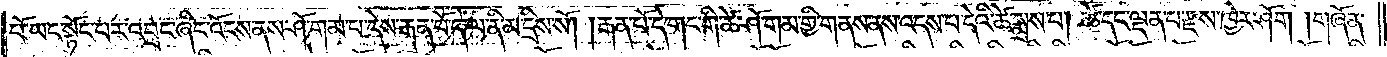པོ་ཡང་སྟོང་པར་འབྲང་ཞིང་འོངས་ནས་ཤོ་གམ་པ་དེས་རྒན་པོ་དེ་ལ་ནི་མ་དྲིས་སོ། །རྒན་པོ་དེ་གང་གི་ཚེ་ཤོ་གམ་གྱི་གནས་ནས་འདས་པ་དེའི་ཚེ་སྨྲས་པ། ཚེ་དང་ལྡན་པ་རྫས་ཁྱེར་ཤོག །གཞོན་
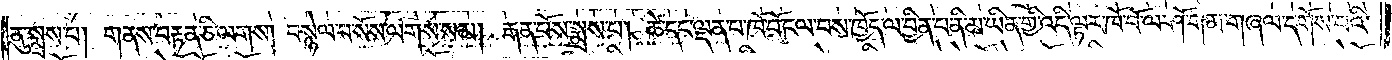ནུ་སྨྲས་པ། གནས་བརྟན་ཅི་ལགས། བསྙེལ་བ་སོས་ལགས་སམ། རྒན་པོས་སྨྲས་པ། ཚེ་དང་ལྡན་པ་ཁོ་བོ་ངལ་བས་ཁྱོད་ལ་བྱིན་པ་ནི་མ་ཡིན་གྱི་འདི་ལྟར་ཁོ་བོ་ལ་ཤོ་གམ་གཞལ་དགོས་པའི་
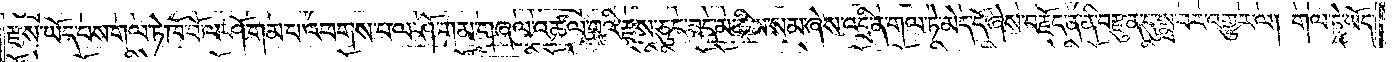རྫས་ཡོད་པས་གལ་ཏེ་ཁོ་བོ་ལ་ཤོ་གམ་པ་འཕགས་པ་ལ་ཤོ་གམ་གཞལ་འཚལ་བའི་རྫས་ཅུང་ཟད་མཆིས་སམ་ཞེས་འདྲི་ན་གལ་ཏེ་མེད་དོ་ཞེས་བརྗོད་ན་ནི་བརྫུན་དུ་སྨྲ་བར་འགྱུར་ལ། གལ་ཏེ་ཡོད་
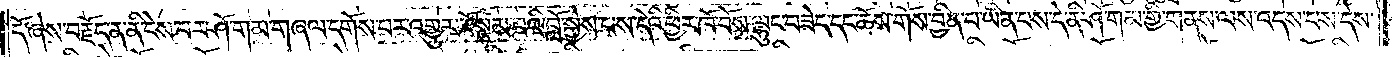དོ་ཞེས་བརྗོད་ན་ནི་ངེས་པར་ཤོ་གམ་གཞལ་དགོས་པར་འགྱུར་རོ་སྙམ་པའི་བློ་སྐྱེས་པས་དེའི་ཕྱིར་ཁོ་བོས་ལྷུང་བཟེད་དང་ཆོས་གོས་བྱིན་པ་ཡིན་པས་དེ་ནི་ཤོ་གམ་གྱི་གནས་ལས་འདས་པས་དེས་
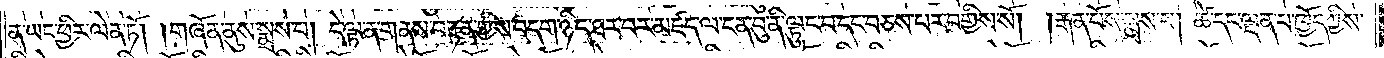ན་ཡང་ཕྱིར་ལེན་ཏོ། །གཞོན་ནུས་སྨྲས་པ། དེ་ལྟ་ན་གནས་བརྟན་གྱིས་བདག་ཉིད་ཐར་པར་མཛད་ལ་ངན་བུ་ནི་ལྟུང་བ་དང་བཅས་པར་བགྱིས་སོ། །རྒན་པོས་སྨྲས་པ། ཚེ་དང་ལྡན་པ་ཁྱོད་ཀྱིས་
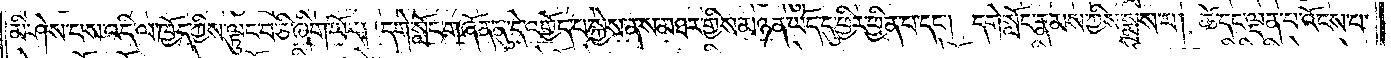མི་ཤེས་པས་འདི་ལ་ཁྱོད་ཀྱིས་ལྟུང་བ་ཅི་ཞིག་ཡོད། དགེ་སློང་གཞོན་ནུ་དེ་འགྱོད་པ་སྐྱེས་ནས་མཐར་གྱིས་མཉན་ཡོད་དུ་ཕྱིར་ཕྱིན་པ་དང༌། དགེ་སློང་རྣམས་ཀྱིས་སྨྲས་པ། ཚེ་དང་ལྡན་པ་འོངས་པ་
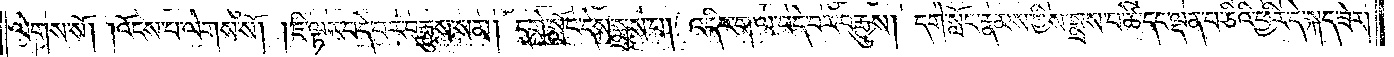ལེགས་སོ། །འོངས་པ་ལེགས་སོ། །ཇི་ལྟར་བདེ་བར་བརྒྱུས་སམ། དགེ་སློང་དེས་སྨྲས་པ། འདིར་ག་ལ་བདེ་བར་བརྒྱུས། དགེ་སློང་རྣམས་ཀྱིས་སྨྲས་པ་ཚེ་དང་ལྡན་པ་ཅིའི་ཕྱིར་དེ་སྐད་ཟེར།
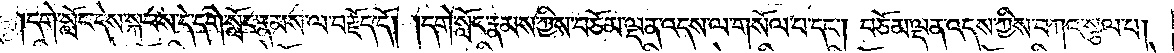དགེ་སློང་དེས་སྐབས་དེ་དགེ་སློང་རྣམས་ལ་བརྗོད་དོ། །དགེ་སློང་རྣམས་ཀྱིས་བཅོམ་ལྡན་འདས་ལ་གསོལ་པ་དང༌། བཅོམ་ལྡན་འདས་ཀྱིས་བཀའ་སྩལ་པ།
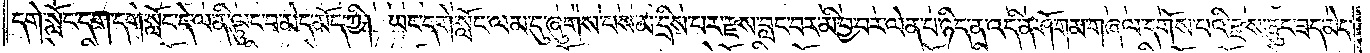དགེ་སློང་དག་དགེ་སློང་དེ་ལ་ནི་ལྟུང་བ་མེད་མོད་ཀྱི། ཡང་དགེ་སློང་ལམ་དུ་ཞུགས་པས་མ་དྲིས་པར་རྫས་བླང་བར་མི་བྱ་བར་ལེན་པ་ཉིད་ན་འདི་ན་ཤོ་གམ་གཞལ་དགོས་པའི་རྫས་ཅུང་ཟད་མེད་
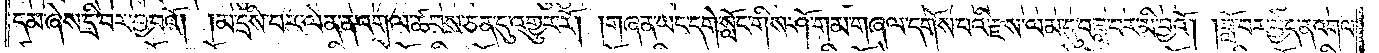དམ་ཞེས་དྲི་བར་བྱ་བའོ། །མ་དྲིས་པར་ལེན་ན་འགལ་ཚབས་ཅན་དུ་འགྱུར་རོ། །གཞན་ཡང་དགེ་སློང་གིས་ཤོ་གམ་གཞལ་དགོས་པའི་རྫས་ལམ་དུ་བཟླ་བར་མི་བྱའོ། །ཟློ་བར་བྱེད་ན་འགལ་
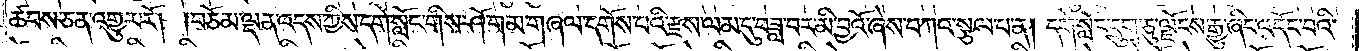ཚབས་ཅན་འགྱུར་རོ། །བཅོམ་ལྡན་འདས་ཀྱིས་དགེ་སློང་གིས་ཤོ་ག་མ་གཞལ་དགོས་པའི་རྫས་ལམ་དུ་བཟླ་བར་མི་བྱའོ་ཞེས་བཀའ་སྩལ་པ་ན། དགེ་སློང་དྲུག་ཅུ་ལྗོངས་རྒྱུ་ཞིང་འདོང་བའི་
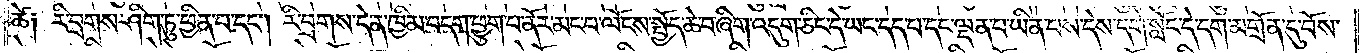ཚེ༑ རི་བྲགས་ཤིག་ཏུ་ཕྱིན་པ་དང༌། རི་བྲགས་དེ་ན་ཁྱིམ་བདག་ཕྱུག་པ་ནོར་མང་བ་ལོངས་སྤྱོད་ཆེ་བ་ཞིག་འདུག་ཅིང་དེ་ཡང་དད་པ་དང་ལྡན་པ་ཡིན་པས་དེས་དགེ་སློང་དེ་དག་མགྲོན་དུ་བོས་
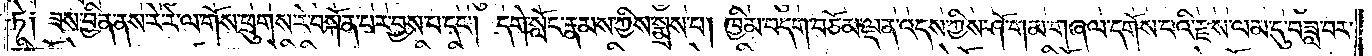ཏེ༑ ཟས་བྱིན་ནས་རེ་རེ་ལ་གོས་ཕྲུགས་རེ་བསྐོན་པར་བྱས་པ་དང༌། དགེ་སློང་རྣམས་ཀྱིས་སྨྲས་པ། ཁྱིམ་བདག་བཅོམ་ལྡན་འདས་ཀྱིས་ཤོ་གམ་གཞལ་དགོས་པའི་རྫས་ལམ་དུ་བཟླ་བར་
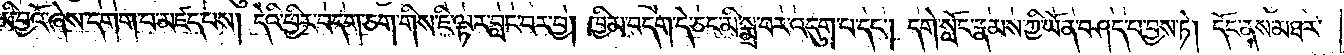མི་བྱའོ་ཞེས་དགག་པ་མཛད་པས། དེའི་ཕྱིར་བདག་ཅག་གིས་ཇི་ལྟར་བླང་བར་བྱ། ཁྱིམ་བདག་དེ་ཅང་མི་སྨྲ་བར་འདུག་པ་དང༌། དགེ་སློང་རྣམས་ཀྱི་ཡོན་བཤད་པ་བྱས་ཏེ། དོང་ནས་མཐར་
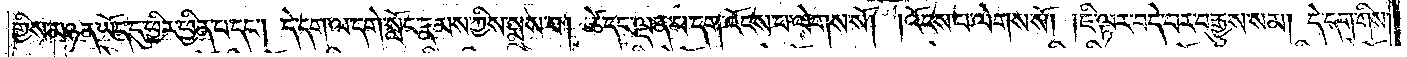གྱིས་མཉན་ཡོད་དུ་ཕྱིར་ཕྱིན་པ་དང༌། དེ་དག་ལ་དགེ་སློང་རྣམས་ཀྱིས་སྨྲས་པ། ཚེ་དང་ལྡན་པ་དག་འོངས་པ་ལེགས་སོ། །འོངས་པ་ལེགས་སོ། །ཇི་ལྟར་བདེ་བར་བརྒྱུས་སམ། དེ་དག་གིས་
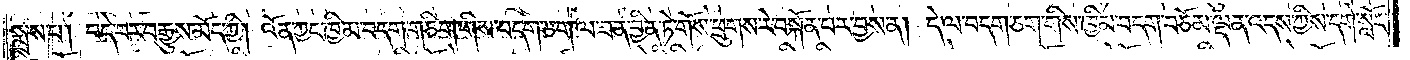སྨྲས་པ། བདེ་བར་བརྒྱུས་མོད་ཀྱི། འོན་ཀྱང་ཁྱིམ་བདག་གཅིག་གིས་བདག་ཅག་ལ་ཟན་བྱིན་ཏེ་གོས་ཕྲུགས་རེ་བསྐོན་པར་བྱས་ན། དེ་ལ་བདག་ཅག་གིས་ཁྱིམ་བདག་བཅོམ་ལྡན་འདས་ཀྱིས་དགེ་སློང་
